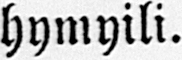hymyili.
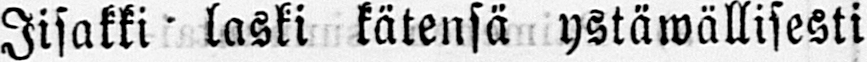Iisakki laski kätensä ystäwällisesti
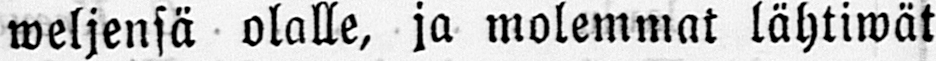weljensä olalle, ja molemmat lähtiwät
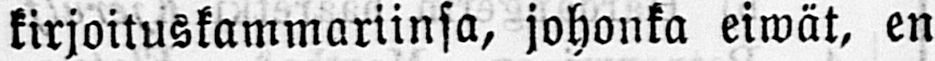kirjoituskammariinsa, johonka eiwät, en
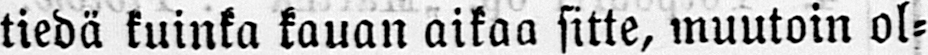tiedä kuinka kauan aikaa sitte, muutoin ol-
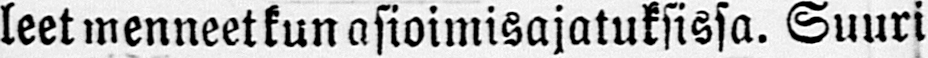leet menneetkun asioimisajatuksissa. Suuri
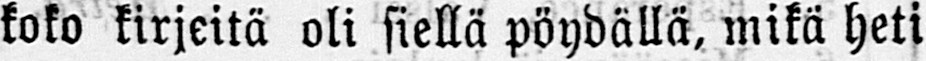koko kirjeitä oli siellä pöydällä, mikä heti
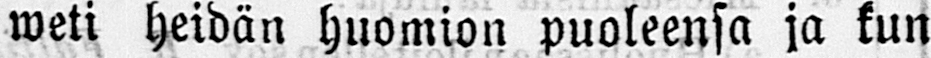weti heidän huomion puoleensa ja kun
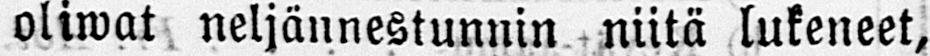oliwat neljännestunnin niitä lukeneet,
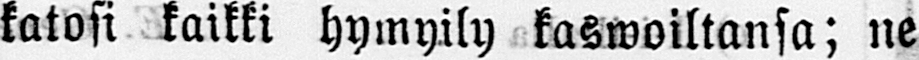katosi kaikki hymyily kaswoiltansa; ne
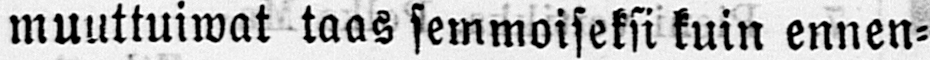muuttuiwat taas semmoiseksi kuin ennen-
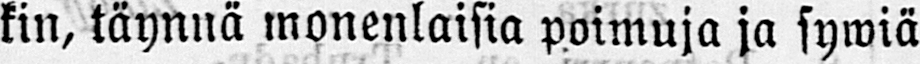kin, täynnä monenlaisia poimuja ja sywiä
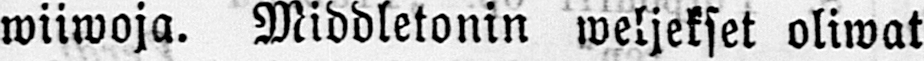wiiwoja. Middletonin weljekset oliwat
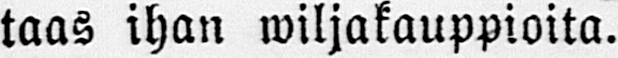taas ihan wiljakauppioita.
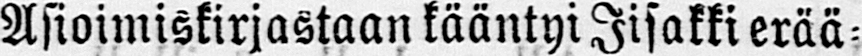Asioimiskirjastaan kääntyi Iisakki erää-
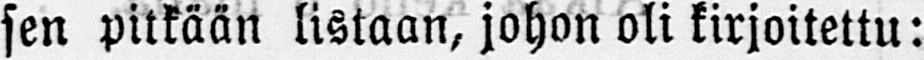sen pitkään listaan, johon oli kirjoitettu:
